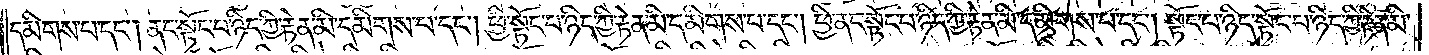དམིགས་པ་དང༌། ནང་སྟོང་པ་ཉིད་ཀྱི་རྟེན་མི་དམིགས་པ་དང༌། ཕྱི་སྟོང་པ་ཉིད་ཀྱི་རྟེན་མི་དམིགས་པ་དང༌། ཕྱི་ནང་སྟོང་པ་ཉིད་ཀྱི་རྟེན་མི་དམིགས་པ་དང༌། སྟོང་པ་ཉིད་སྟོང་པ་ཉིད་ཀྱི་རྟེན་མི་
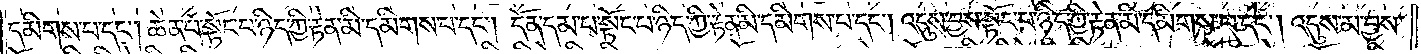དམིགས་པ་དང༌། ཆེན་པོ་སྟོང་པ་ཉིད་ཀྱི་རྟེན་མི་དམིགས་པ་དང༌། དོན་དམ་པ་སྟོང་པ་ཉིད་ཀྱི་རྟེན་མི་དམིགས་པ་དང༌། འདུས་བྱས་སྟོང་པ་ཉིད་ཀྱི་རྟེན་མི་དམིགས་པ་དང༌། འདུས་མ་བྱས་
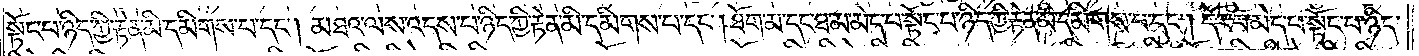སྟོང་པ་ཉིད་ཀྱི་རྟེན་མི་དམིགས་པ་དང༌། མཐའ་ལས་འདས་པ་སྟོང་པ་ཉིད་ཀྱི་རྟེན་མི་དམིགས་པ་དང༌། ཐོག་མ་དང་ཐ་མ་མེད་པ་སྟོང་པ་ཉིད་ཀྱི་རྟེན་མི་དམིགས་པ་དང༌། དོར་བ་མེད་པ་སྟོང་པ་ཉིད་
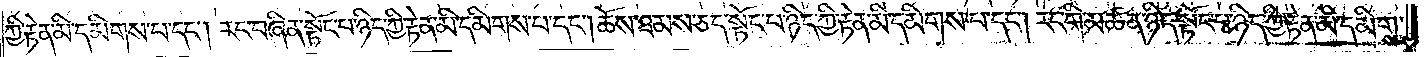ཀྱི་རྟེན་མི་དམིགས་པ་དང༌། རང་བཞིན་སྟོང་པ་ཉིད་ཀྱི་རྟེན་མི་དམིགས་པ་དང༌། ཆོས་ཐམས་ཅད་སྟོང་པ་ཉིད་ཀྱི་རྟེན་མི་དམིགས་པ་དང༌། རང་གི་མཚན་ཉིད་སྟོང་པ་ཉིད་ཀྱི་རྟེན་མི་དམིགས་
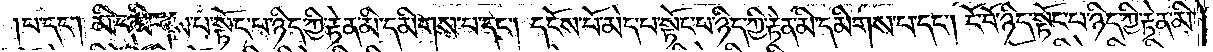པ་དང༌། མི་དམིགས་པ་སྟོང་པ་ཉིད་ཀྱི་རྟེན་མི་དམིགས་པ་དང༌། དངོས་པོ་མེད་པ་སྟོང་པ་ཉིད་ཀྱི་རྟེན་མི་དམིགས་པ་དང༌། ངོ་བོ་ཉིད་སྟོང་པ་ཉིད་ཀྱི་རྟེན་མི་
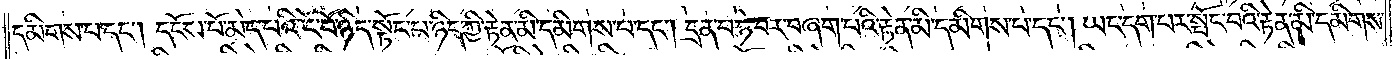དམིགས་པ་དང༌། དངོས་པོ་མེད་པའི་ངོ་བོ་ཉིད་སྟོང་པ་ཉིད་ཀྱི་རྟེན་མི་དམིགས་པ་དང༌། དྲན་པ་ཉེ་བར་བཞག་པའི་རྟེན་མི་དམིགས་པ་དང༌། ཡང་དག་པར་སྤོང་བའི་རྟེན་མི་དམིགས་
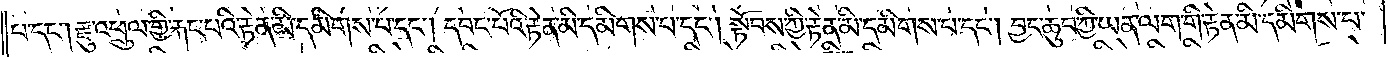པ་དང༌། རྫུ་འཕྲུལ་གྱི་རྐང་པའི་རྟེན་མི་དམིགས་པ་དང༌། དབང་པོའི་རྟེན་མི་དམིགས་པ་དང༌། སྟོབས་ཀྱི་རྟེན་མི་དམིགས་པ་དང༌། བྱང་ཆུབ་ཀྱི་ཡན་ལག་གི་རྟེན་མི་དམིགས་པ་
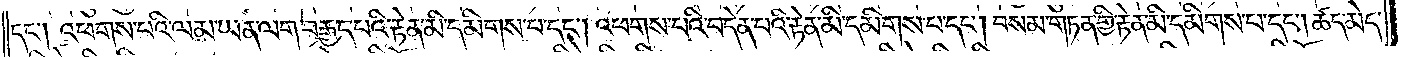དང༌། འཕགས་པའི་ལམ་ཡན་ལག་བརྒྱད་པའི་རྟེན་མི་དམིགས་པ་དང༌། འཕགས་པའི་བདེན་པའི་རྟེན་མི་དམིགས་པ་དང༌། བསམ་གཏན་གྱི་རྟེན་མི་དམིགས་པ་དང༌། ཚད་མེད་
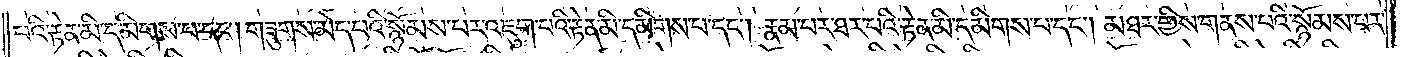པའི་རྟེན་མི་དམིགས་པ་དང༌། གཟུགས་མེད་པའི་སྙོམས་པར་འཇུག་པའི་རྟེན་མི་དམིགས་པ་དང༌། རྣམ་པར་ཐར་པའི་རྟེན་མི་དམིགས་པ་དང༌། མཐར་གྱིས་གནས་པའི་སྙོམས་པར་
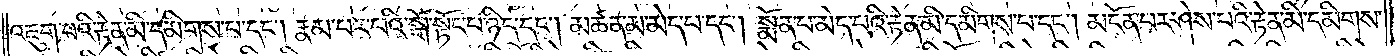འཇུག་པའི་རྟེན་མི་དམིགས་པ་དང༌། རྣམ་པ་ཐར་པའི་སྒོ་སྟོང་པ་ཉིད་དང༌། མཚན་མ་མེད་པ་དང༌། སྨོན་པ་མེད་པའི་རྟེན་མི་དམིགས་པ་དང༌། མངོན་པར་ཤེས་པའི་རྟེན་མི་དམིགས་
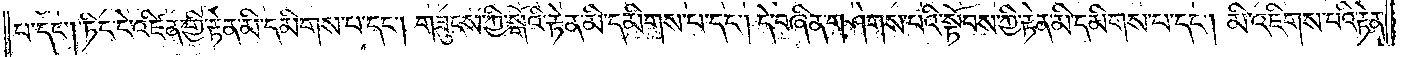པ་དང༌། ཏིང་ངེ་འཛིན་གྱི་རྟེན་མི་དམིགས་པ་དང༌། གཟུངས་ཀྱི་སྒོའི་རྟེན་མི་དམིགས་པ་དང༌། དེ་བཞིན་གཤེགས་པའི་སྟོབས་ཀྱི་རྟེན་མི་དམིགས་པ་དང༌། མི་འཇིགས་པའི་རྟེན་
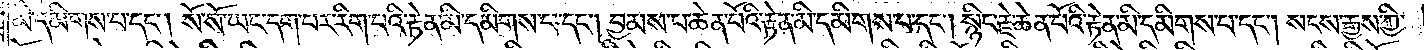མི་དམིགས་པ་དང༌། སོ་སོ་ཡང་དག་པར་རིག་པའི་རྟེན་མི་དམིགས་པ་དང༌། བྱམས་པ་ཆེན་པོའི་རྟེན་མི་དམིགས་པ་དང༌། སྙིང་རྗེ་ཆེན་པོའི་རྟེན་མི་དམིགས་པ་དང༌། སངས་རྒྱས་ཀྱི་
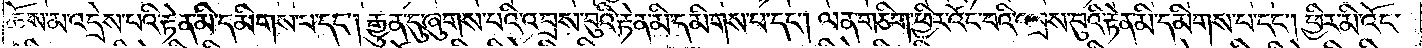ཆོས་མ་འདྲེས་པའི་རྟེན་མི་དམིགས་པ་དང༌། རྒྱུན་དུ་ཞུགས་པའི་འབྲས་བུའི་རྟེན་མི་དམིགས་པ་དང༌། ལན་གཅིག་ཕྱིར་འོང་བའི་འབྲས་བུའི་རྟེན་མི་དམིགས་པ་དང༌། ཕྱིར་མི་འོང་
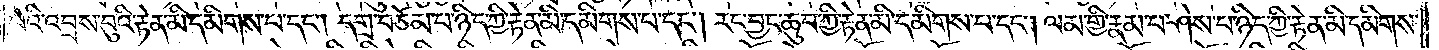བའི་འབྲས་བུའི་རྟེན་མི་དམིགས་པ་དང༌། དགྲ་བཅོམ་པ་ཉིད་ཀྱི་རྟེན་མི་དམིགས་པ་དང༌། རང་བྱང་ཆུབ་ཀྱི་རྟེན་མི་དམིགས་པ་དང༌། ལམ་གྱི་རྣམ་པ་ཤེས་པ་ཉིད་ཀྱི་རྟེན་མི་དམིགས་
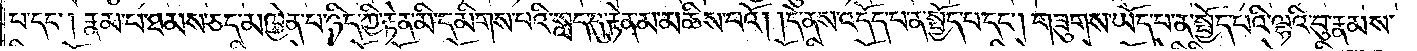པ་དང༌། རྣམ་པ་ཐམས་ཅད་མཁྱེན་པ་ཉིད་ཀྱི་རྟེན་མི་དམིགས་པའི་སླད་དུ་རྟེན་མ་མཆིས་པའོ། །དེ་ནས་འདོད་པ་ན་སྤྱོད་པ་དང༌། གཟུགས་ཡོད་པ་ན་སྤྱོད་པའི་ལྷའི་བུ་རྣམས་
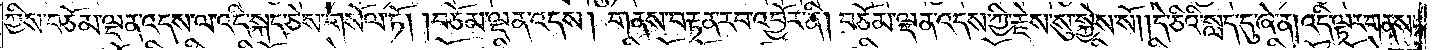ཀྱིས་བཅོམ་ལྡན་འདས་ལ་འདི་སྐད་ཅེས་གསོལ་ཏོ། །བཅོམ་ལྡན་འདས། གནས་བརྟན་རབ་འབྱོར་ནི། བཅོམ་ལྡན་འདས་ཀྱི་རྗེས་སུ་སྐྱེས་སོ། །དེ་ཅིའི་སླད་དུ་ཞེ་ན། འདི་ལྟར་གནས་
